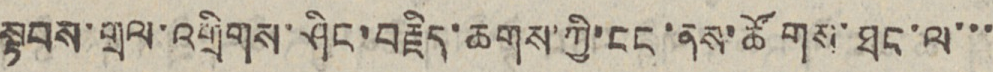སྟབས་གྲལ་འགྲིགས་ཤིང་བརྗིད་ཆགས་ཀྱི་ངང་ནས་ཚོགས་ཐང་ལ་་་
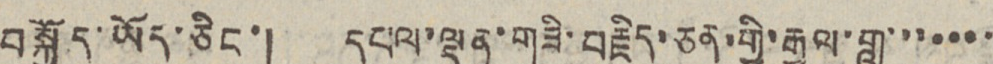བསྐྱོད་ཡོད་ཅིང་། དཔལ་ལྡན་གཟི་བརྗིད་ཅན་གྱི་རྒྱལ་གླུ་་་་་་་
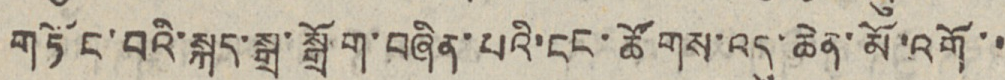གཏོང་བའི་སྐད་སྒྲ་སྒྲོག་བཞིན་པའི་ངང་ཚོགས་འདུ་ཆེན་མོ་འགོ་་
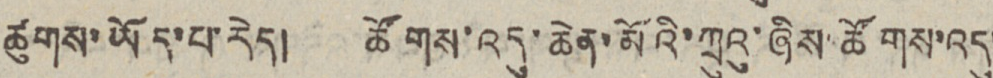ཚུགས་ཡོད་པ་རེད། ཚོགས་འདུ་ཆེན་མོའི་ཀྲུའུ་ཞིས་ཚོགས་འདུ་
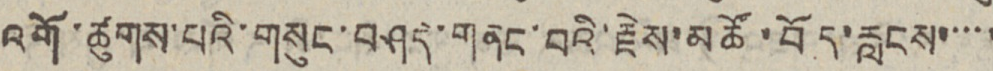འགོ་ཚུགས་པའི་གསུང་བཤད་གནང་བའི་རྗེས་མཚོ་བོད་རླངས་་་་་
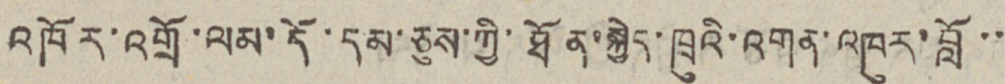འཁོར་འགྲོ་ལམ་དོ་དམ་ཅུས་ཀྱི་ཐོན་སྐྱེད་ཁྲུའི་འགན་འཁུར་བློ་་
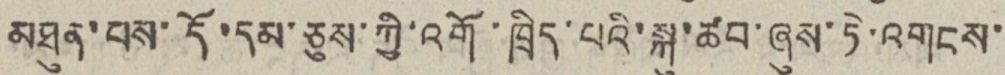མཐུན་པས་དོ་དམ་ཅུས་ཀྱི་འགོ་ཁྲིད་པའི་སྐུ་ཚབ་ཞུས་ཏེ་འགངས་
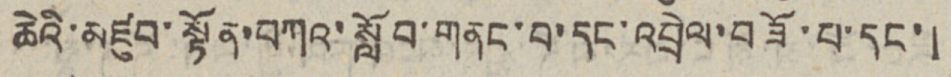ཆེའི་མཛུབ་སྟོན་བཀའ་སློབ་གནང་བ་དང་འབྲེལ་བཟོ་པ་དང་།
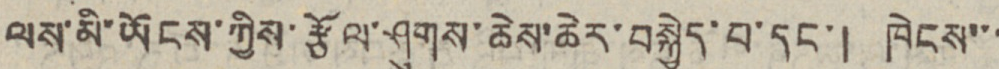ལས་མི་ཡོངས་ཀྱིས་རྩོལ་ཤུགས་ཆེས་ཆེར་བསྐྱེད་པ་དང་། ཁེངས་་་
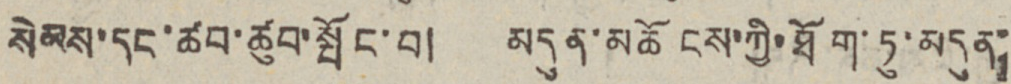སེམས་དང་ཚབ་ཚུབ་སྤོང་བ། མདུན་མཆོངས་ཀྱི་ཐོག་ཏུ་མདུན་
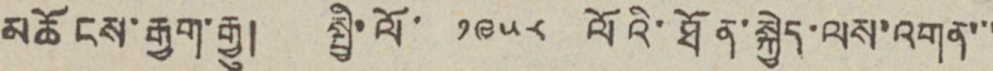མཆོངས་རྒྱག་རྒྱུ། སྤྱི་ལོ་ ༡༩༥༨ ལོའི་ཐོན་སྐྱེད་ལས་འགན་་་
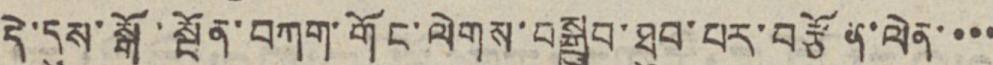དེ་དུས་སྒོ་སྔོན་བཀག་གོང་ལེགས་བསྒྲུབ་ཐུབ་པར་བརྩོན་ལེན་་་་
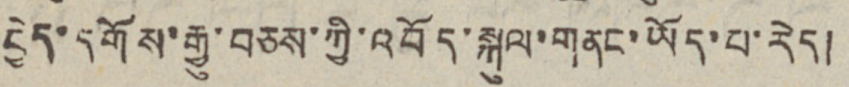བྱེད་དགོས་རྒྱུ་བཅས་ཀྱི་འབོད་སྐུལ་གནང་ཡོད་པ་རེད།
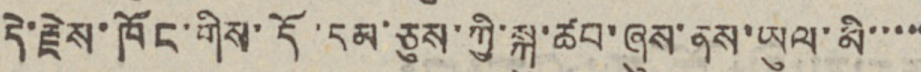དེ་རྗེས་ཁོང་གིས་དོ་དམ་ཅུས་ཀྱི་སྐུ་ཚབ་ཞུས་ནས་ཡུལ་མི་་་་་
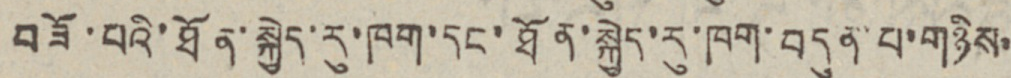བཟོ་པའི་ཐོན་སྐྱེད་རུ་ཁག་དང་ཐོན་སྐྱེད་ཏུ་ཁག་བདུན་པ་གཉིས་
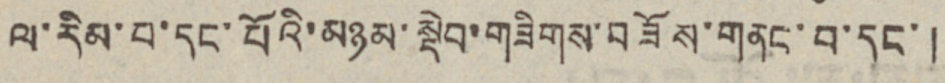ལ་རིམ་པ་དང་པོའི་མཉམ་སྡེབ་གཟིགས་བཟོས་གནང་བ་དང་།
